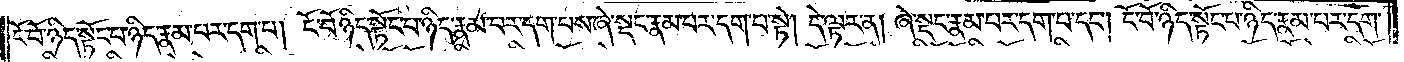ངོ་བོ་ཉིད་སྟོང་པ་ཉིད་རྣམ་པར་དག་པ། ངོ་བོ་ཉིད་སྟོང་པ་ཉིད་རྣམ་པར་དག་པས་ཞེ་སྡང་རྣམ་པར་དག་པ་སྟེ། དེ་ལྟར་ན། ཞེ་སྡང་རྣམ་པར་དག་པ་དང༌། ངོ་བོ་ཉིད་སྟོང་པ་ཉིད་རྣམ་པར་དག་
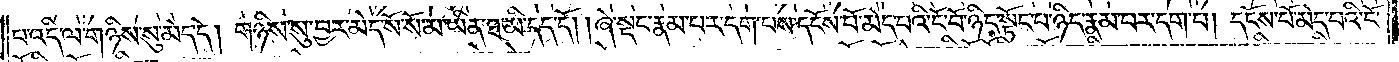པ་འདི་ལ་གཉིས་སུ་མེད་དེ། གཉིས་སུ་བྱར་མེད་སོ་སོ་མ་ཡིན་ཐ་མི་དད་དོ། །ཞེ་སྡང་རྣམ་པར་དག་པས་དངོས་པོ་མེད་པའི་ངོ་བོ་ཉིད་སྟོང་པ་ཉིད་རྣམ་པར་དག་པ། དངོས་པོ་མེད་པའི་ངོ་
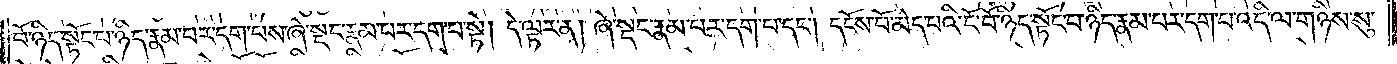བོ་ཉིད་སྟོང་པ་ཉིད་རྣམ་པར་དག་པས་ཞེ་སྡང་རྣམ་པར་དག་པ་སྟེ། དེ་ལྟར་ན། ཞེ་སྡང་རྣམ་པར་དག་པ་དང༌། དངོས་པོ་མེད་པའི་ངོ་བོ་ཉིད་སྟོང་པ་ཉིད་རྣམ་པར་དག་པ་འདི་ལ་གཉིས་སུ་
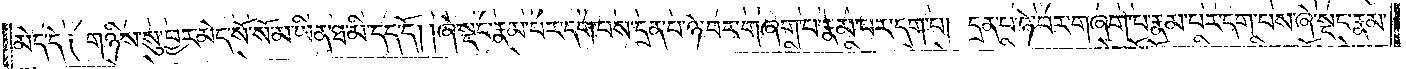མེད་དེ༑ གཉིས་སུ་བྱར་མེད་སོ་སོ་མ་ཡིན་ཐ་མི་དད་དོ། །ཞེ་སྡང་རྣམ་པར་དག་པས་དྲན་པ་ཉེ་བར་གཞག་པ་རྣམ་པར་དག་པ། དྲན་པ་ཉེ་བར་གཞག་པ་རྣམ་པར་དག་པས་ཞེ་སྡང་རྣམ་
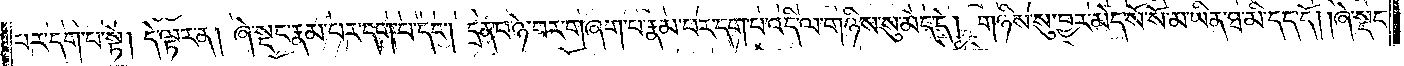པར་དག་པ་སྟེ། དེ་ལྟར་ན། ཞེ་སྡང་རྣམ་པར་དག་པ་དང༌། དྲན་པ་ཉེ་བར་གཞག་པ་རྣམ་པར་དག་པ་འདི་ལ་གཉིས་སུ་མེད་དེ། གཉིས་སུ་བྱར་མེད་སོ་སོ་མ་ཡིན་ཐ་མི་དད་དོ། །ཞེ་སྡང་
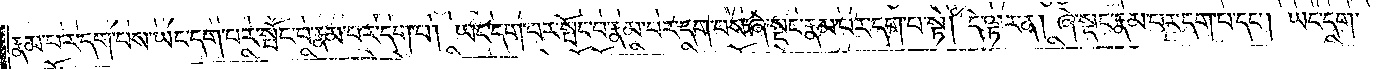རྣམ་པར་དག་པས་ཡང་དག་པར་སྤོང་བ་རྣམ་པར་དག་པ། ཡང་དག་པར་སྤོང་བ་རྣམ་པར་དག་པས་ཞེ་སྡང་རྣམ་པར་དག་པ་སྟེ། དེ་ལྟར་ན། ཞེ་སྡང་རྣམ་པར་དག་པ་དང༌། ཡང་དག་
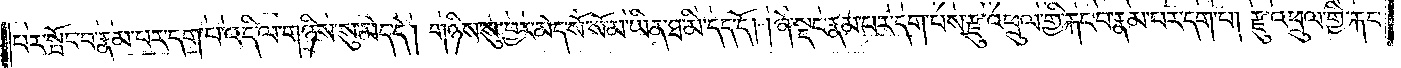པར་སྤོང་བ་རྣམ་པར་དག་པ་འདི་ལ་གཉིས་སུ་མེད་དེ། གཉིས་སུ་བྱར་མེད་སོ་སོ་མ་ཡིན་ཐ་མི་དད་དོ། །ཞེ་སྡང་རྣམ་པར་དག་པས་རྫུ་འཕྲུལ་གྱི་རྐང་པ་རྣམ་པར་དག་པ། རྫུ་འཕྲུལ་གྱི་རྐང་
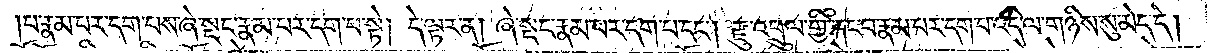པ་རྣམ་པར་དག་པས་ཞེ་སྡང་རྣམ་པར་དག་པ་སྟེ། དེ་ལྟར་ན། ཞེ་སྡང་རྣམ་པར་དག་པ་དང༌། རྫུ་འཕྲུལ་གྱི་རྐང་པ་རྣམ་པར་དག་པ་འདི་ལ་གཉིས་སུ་མེད་དེ།
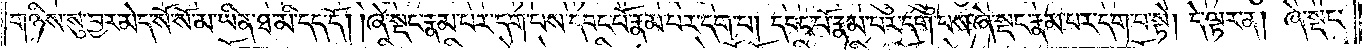གཉིས་སུ་བྱར་མེད་སོ་སོ་མ་ཡིན་ཐ་མི་དད་དོ། །ཞེ་སྡང་རྣམ་པར་དག་པས་དབང་པོ་རྣམ་པར་དག་པ། དབང་པོ་རྣམ་པར་དག་པས་ཞེ་སྡང་རྣམ་པར་དག་པ་སྟེ། དེ་ལྟར་ན། ཞེ་སྡང་
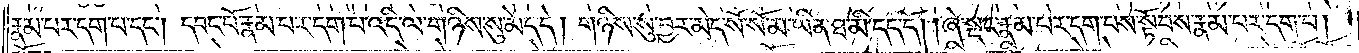རྣམ་པར་དག་པ་དང༌། དབང་པོ་རྣམ་པར་དག་པ་འདི་ལ་གཉིས་སུ་མེད་དེ། གཉིས་སུ་བྱར་མེད་སོ་སོ་མ་ཡིན་ཐ་མི་དད་དོ། །ཞེ་སྡང་རྣམ་པར་དག་པས་སྟོབས་རྣམ་པར་དག་པ།
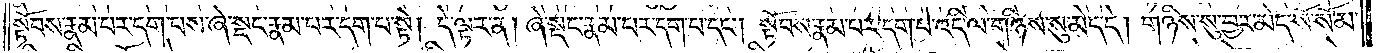སྟོབས་རྣམ་པར་དག་པས་ཞེ་སྡང་རྣམ་པར་དག་པ་སྟེ། དེ་ལྟར་ན། ཞེ་སྡང་རྣམ་པར་དག་པ་དང༌། སྟོབས་རྣམ་པར་དག་པ་འདི་ལ་གཉིས་སུ་མེད་དེ། གཉིས་སུ་བྱར་མེད་སོ་སོ་མ་
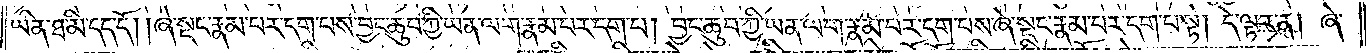ཡིན་ཐ་མི་དད་དོ། །ཞེ་སྡང་རྣམ་པར་དག་པས་བྱང་ཆུབ་ཀྱི་ཡན་ལག་རྣམ་པར་དག་པ། བྱང་ཆུབ་ཀྱི་ཡན་ལག་རྣམ་པར་དག་པས་ཞེ་སྡང་རྣམ་པར་དག་པ་སྟེ། དེ་ལྟར་ན། ཞེ་
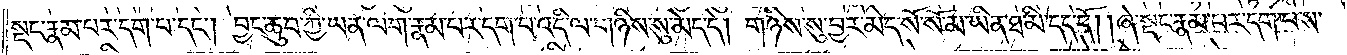སྡང་རྣམ་པར་དག་པ་དང༌། བྱང་ཆུབ་ཀྱི་ཡན་ལག་རྣམ་པར་དག་པ་འདི་ལ་གཉིས་སུ་མེད་དེ། གཉིས་སུ་བྱར་མེད་སོ་སོ་མ་ཡིན་ཐ་མི་དད་དོ། །ཞེ་སྡང་རྣམ་པར་དག་པས་
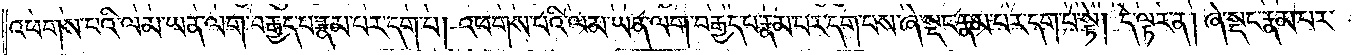འཕགས་པའི་ལམ་ཡན་ལག་བརྒྱད་པ་རྣམ་པར་དག་པ། འཕགས་པའི་ལམ་ཡན་ལག་བརྒྱད་པ་རྣམ་པར་དག་པས་ཞེ་སྡང་རྣམ་པར་དག་པ་སྟེ། དེ་ལྟར་ན། ཞེ་སྡང་རྣམ་པར་
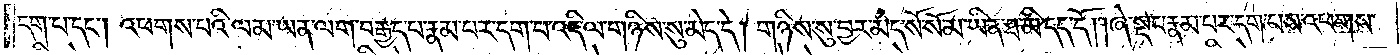དག་པ་དང༌། འཕགས་པའི་ལམ་ཡན་ལག་བརྒྱད་པ་རྣམ་པར་དག་པ་འདི་ལ་གཉིས་སུ་མེད་དེ། གཉིས་སུ་བྱར་མེད་སོ་སོ་མ་ཡིན་ཐ་མི་དད་དོ། །ཞེ་སྡང་རྣམ་པར་དག་པས་འཕགས་
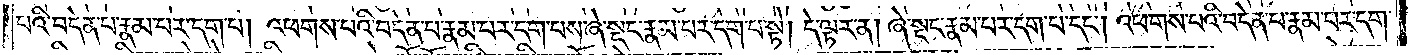པའི་བདེན་པ་རྣམ་པར་དག་པ། འཕགས་པའི་བདེན་པ་རྣམ་པར་དག་པས་ཞེ་སྡང་རྣམ་པར་དག་པ་སྟེ། དེ་ལྟར་ན། ཞེ་སྡང་རྣམ་པར་དག་པ་དང༌། འཕགས་པའི་བདེན་པ་རྣམ་པར་དག་
